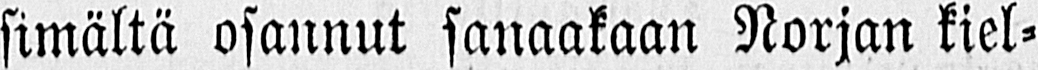simältä osannut sanaakaan Norjan kiel-
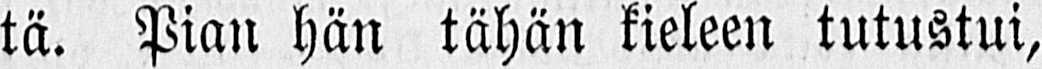tä. Pian hän tähän kieleen tutustui,
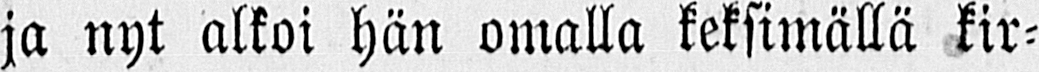ja nyt alkoi hän omalla keksimällä kir-
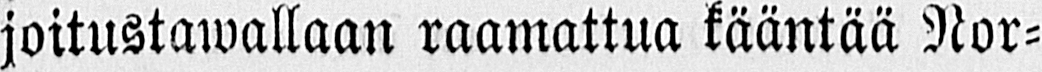joitustawallaan raamattua kääntää Nor-
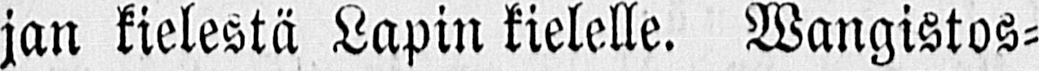jan kielestä Lapin kielelle. Wangistos-
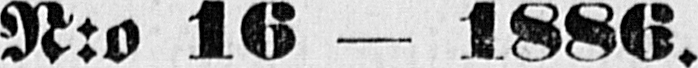N:o 16 — 1886.
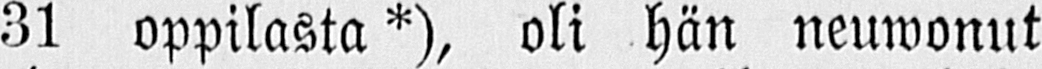31 oppilasta*), oli hän neuwonut
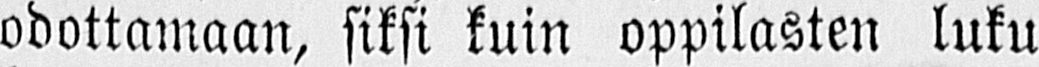odottamaan, siksi kuin oppilasten luku
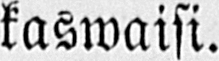kaswaisi.
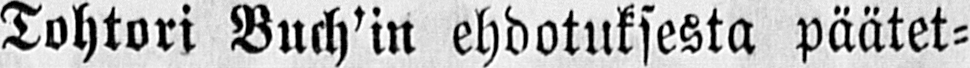Tohtori Buch'in ehdotuksesta päätet-
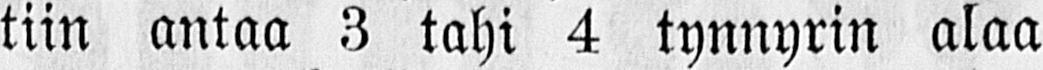tiin antaa 3 tahi 4 tynnyrin alaa
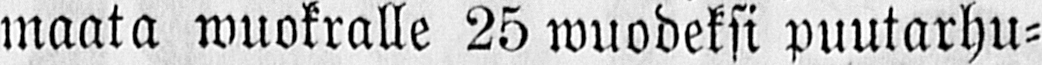maata wuokralle 25 wuodeksi puutarhu-
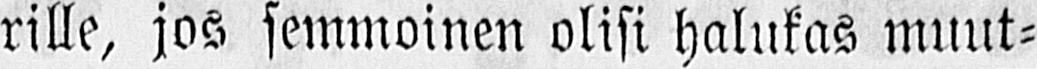rille, jos semmoinen olisi halukas muut-
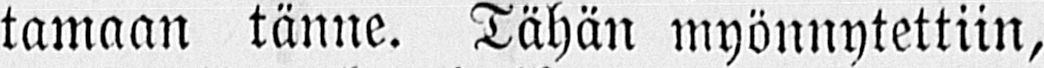tamaan tänne. Tähän myönnytettiin,
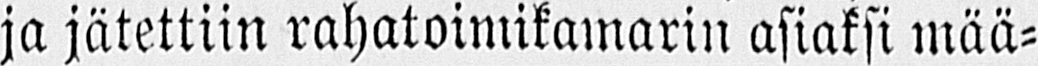ja jätettiin rahatoimikamarin asiaksi mää-
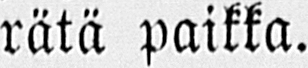rätä paikka.
